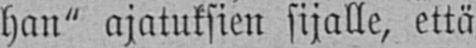han" ajatuksien sijalle, että
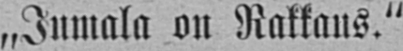„Jumala on Rakkaus."
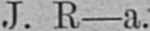J. R—a.
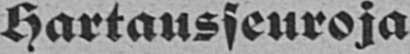Hartausseuroja
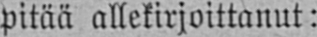pitää allekirjoittanut:
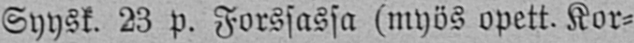Syysk. 23 p. Forssassa (myös opett. Kor-
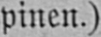pinen.)
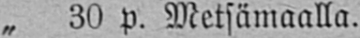„ 30 p. Metsämaalla.
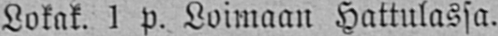Lokak. l p. Loimaan Hattulassa.
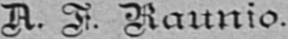A. F. Raunio.
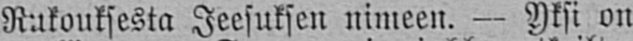Rukouksesta Jeesuksen nimeen. — Yksi on
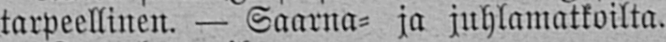tarpeellinen. — Saarna- ja juhlamatkoilta.
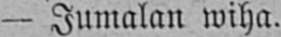— Jumalan wiha.
